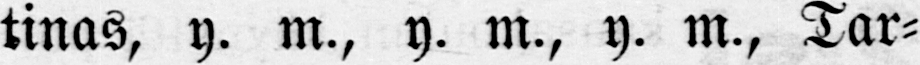tinas, y. m., y. m., y. m., Tar-
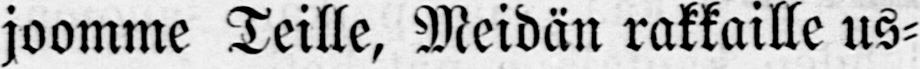joomme Teille, Meidän rakkaille us-
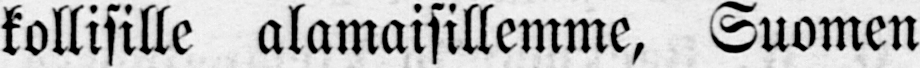kollisille alamaisillemme, Suomen
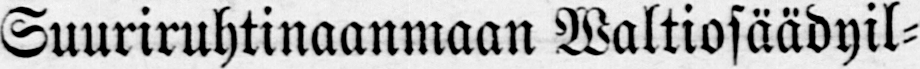Suuriruhtinaanmaan Waltiosäädyil-
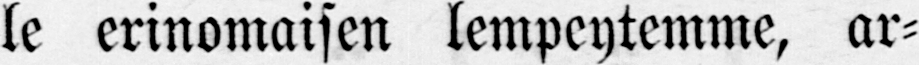le erinomaisen lempeytemme, ar-
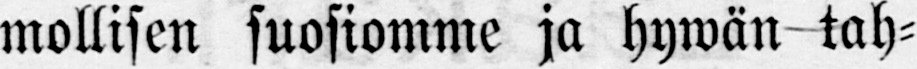mollisen suosiomme ja hywän-tah-
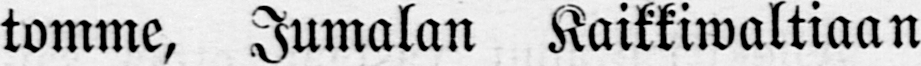tomme, Jumalan Kaikkiwaltiaan
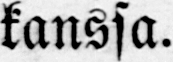kanssa.
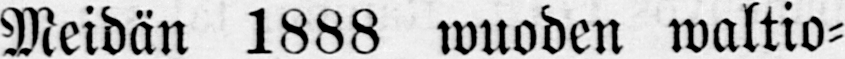Meidän 1888 wuoden waltio-
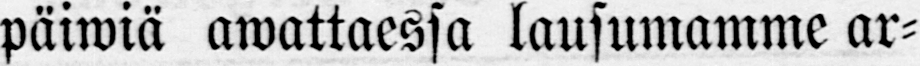päiwiä awattaessa lausumamme ar-
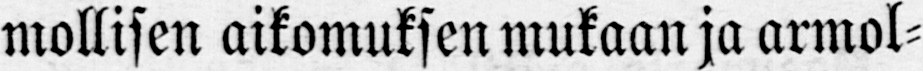mollisen aikomuksen mukaan ja armol-
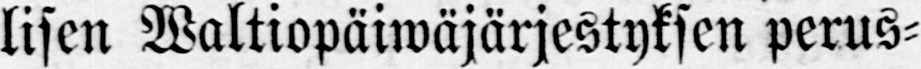lisen Waltiopäiwäjärjestyksen perus-
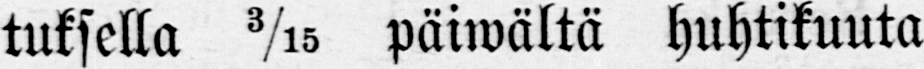tuksella 3/15 päiwältä huhtikuuta
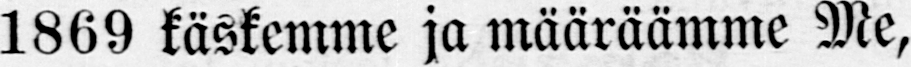1869 käskemme ja määräämme Me,
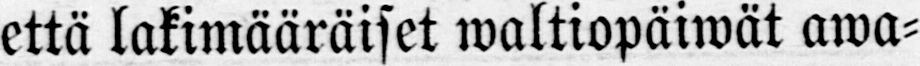että lakimääräiset waltiopäiwät awa-
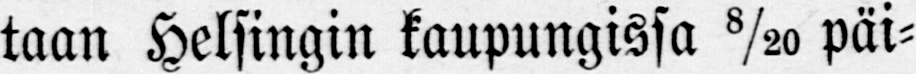taan Helsingin kaupungissa 8/20 päi-
